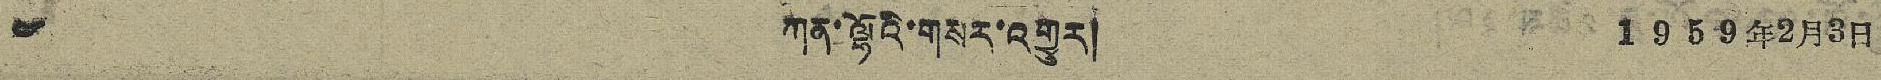༤ ཀན་ལྷོའི་གསར་འགྱུར། 1959年2月3日
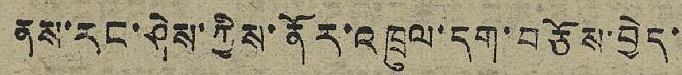ནས་རང་ཤེས་ཀྱིས་ནོར་འཁྲུལ་དག་བཅོས་བྱེད་
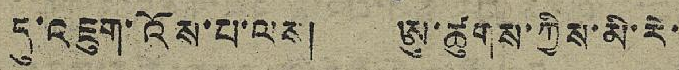དུ་འཇུག་འོས་པ་ལས། ཨུ་ཚུགས་ཀྱིས་མི་རེ་
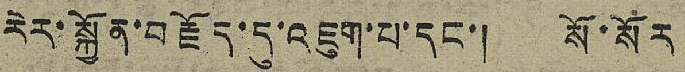རེར་སྐྱོན་བརྗོད་དུ་འཇུག་པ་དང་། སོ་སོར
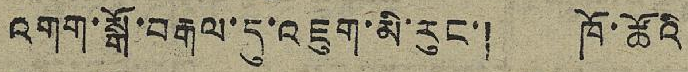འགག་སྒོ་བརྒལ་དུ་འཇུག་མི་རུང་། ཁོ་ཚོའི
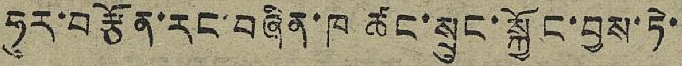ཧུར་བརྩོན་རང་བཞིན་ཁ་ཚང་སྲུང་སྐྱོང་བྱས་ཏེ་
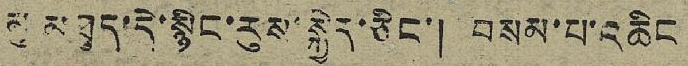མུ་མཐུད་དེ་སྙིང་རུས་སྐྱེད་ཅིང་། བསམ་པ་འཆིང
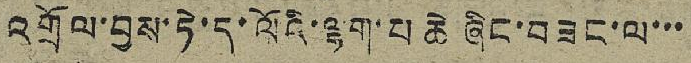འགྲོལ་བྱས་ཏེ་ད་ལོའི་ལྷག་པ་ཆེ ཞིང་བཟང་ལ་་་
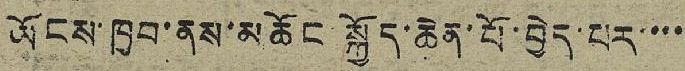ཡོངས་ཁྱབ་ནས་མཆོང་སྐྱོད་ཆེན་པོ་བྱེད་པར་་་་
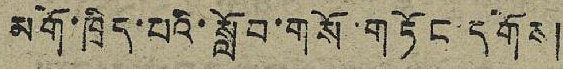མགོ་ཁྲིད་པའི་སློབ་གསོ་གཏོང་དགོས།
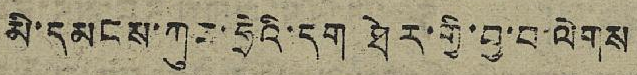མི་དམངས་ཀུང་ཧྲེའི་དག ཐེར་གྱི་བྱ་བ་ལེགས
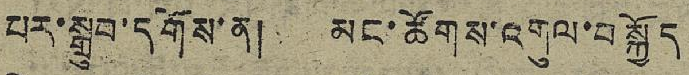པར་སྒྲུབ་དགོས་ན། མང་ཚོགས་འགུལ་བསྐྱོད
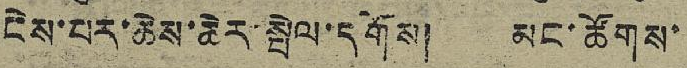ངེས་པར་ཆེས་ཆེར་སྤེལ་དགོས། མང་ཚོགས་
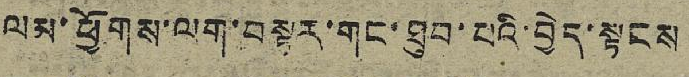ལམ་ཕྱོགས་ལག་བསྟར་གང་ཐུབ་པའི་བྱེད་སྟངས
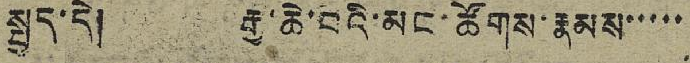སྤྱད་དེ། རྒྱ་ཆེ་བའི་མང་ཚོགས་རྣམས་་་་་
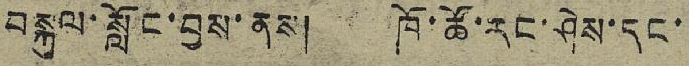བསྐུལ་སློང་བྱས་ནས། ཁོ་ཚོ་རང་ཤེས་དང་
